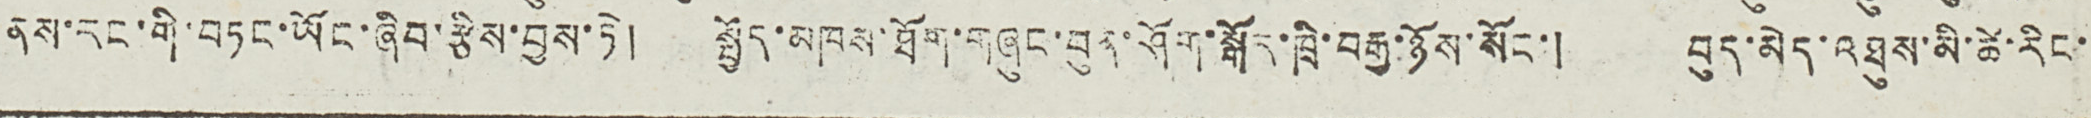ན་རང་གི་བཏང་ཡོང་ཞིབ་རྩིས་བྱས་ཏེ། སྤྱོད་མཁས་ཐོག་གཞུང་བུན་ཤོག་སྒོར་ཁྲི་བརྒྱ་ཉོས་སོང་། བུད་མེད་འཐུས་མི་ཚི་རིང་
